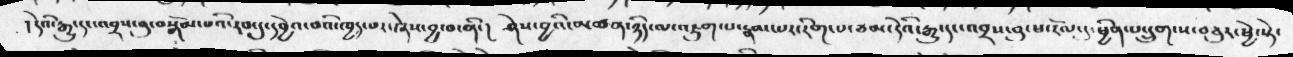།དེའི་རྒྱུ་དང་འབྲས་བུ་བསྒོམ་པའི་རབ་དུ་དབྱེའ་བའི་ཁྱད་པར་ཞེས་བྱ་བ་ནི་།  ཤེས་བྱའི་མཚན་ཉིད་ལ་འཇུག་པ་རྣམ་པར་་རིག་པ་ཙམ་དེའི་རྒྱུ་དང་འབྲས་བུ་ཕ་རོལ་དུ་ཕྱིན་པ་དྲུག་ས་བཅུར་ཕྱེ་སྟེ་
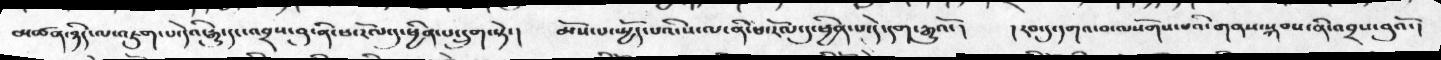མཚན་ཉིད་ལ་འཇུག་པ་དེའི་རྒྱུ་དང་འབྲས་བུ་ནི་ཕ་རོལ་དུ་ཕྱིན་པ་དྲུག་སྟེ་།  མོས་པ་སྤྱོད་པའི་ས་ལ་ནི་ཕ་རོལ་དུ་ཕྱིན་པ་དེ་དག་རྒྱུའོ་།  །རབ་དུ་དགའ་བ་ལསོགས་པའི་གནས་སྐབས་ནི་འབྲས་བུའོ་།
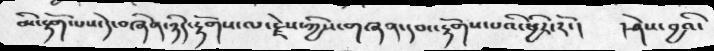མི་རྟོག་པས་དེ་བཞིན་ཉིད་རྟོགས་ལ་རྗེས་ཀྱིས་གཞན་དབང་རྟོགས་པའི་ཕྱིར་རོ་།  །ཤེས་བྱའི་
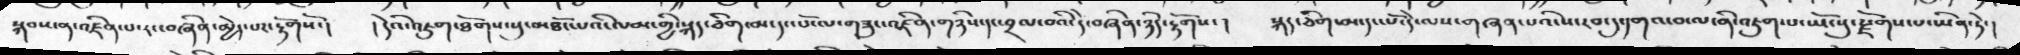སྐབས་ན་འཛིན་པ་རང་བཞིན་མྱེད་པར་རྟོགསོ་།  །དེའི་འཇུག་ཐོགས་སུ་མཐོང་པའི་ལམ་གྱི་སྐད་ཅིག་མ་དང་པོ་ལ་གཟུང་འཛིན་གཉིས་དང་བྲལ་བའི་དེ་བཞིན་ཉིད་རྟོགས་།  སྐད་ཅིག་མ་དང་པོ་དེ་ལས་གཞན་པའི་རབ་དུ་དགའ་བ་ལ་ནི་འཇུག་པ་ཡོངསུ་རྫོགས་པ་ཡིན་ཏེ་།
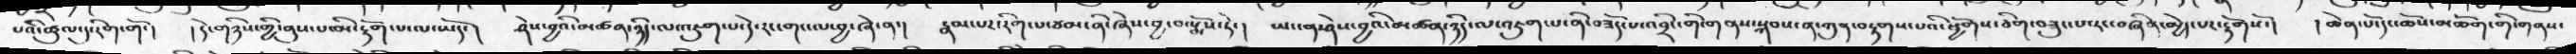པའི་ཚུལ་དུ་རིག་གོ་།  །དེ་གཉིས་གྱི་ནུས་པ་མི་རྟོག་པ་ལ་ཡོད་།  ཤེས་བྱའི་མཚན་ཉིད་ལ་འཇུག་པ་དེ་རང་གང་ལ་བྱ་ཞེ་ན་།  རྣམ་པར་རིག་པ་ཙམ་ནི་ཞེས་བྱ་བ་སྨོས་ཏེ་།  ཡང་ན་ཤེས་བྱའི་མཚན་ཉིད་ལ་འཇུག་པ་ནི་བཟོད་པ་འབྲིང་གི་གནས་སྐབས་ན་ཀུན་བརྟགས་པའི་ཕྱོགས་ཅིག་བཟུང་པ་རང་བཞིན་མྱེད་པར་རྟོགསོ་།  །ཆེན་པོ་དང་ཆོས་མཆོག་གི་གནས་
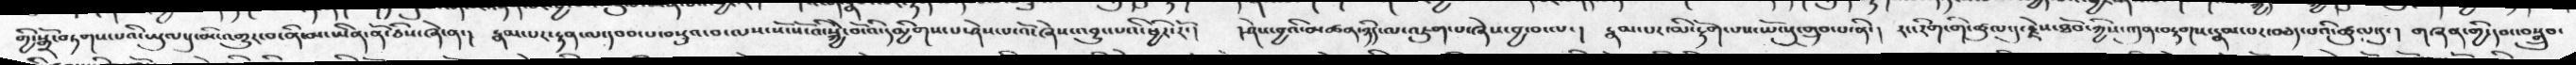གྱི་སྒྲོ་བཏགས་པའི་ཡུལ་དུ་མི་འགྱུར་བ་ནི་མ་ཡིན་ནོ་ཅིས་ཞེ་ན།  རྣམ་པར་རྟན་ལ་དབབ་པ་བསྡུའ་བ་ལས་སོ་སོ་འི་སྐྱེ་བོ་འི་དམྱིགས་པ་ཤེས་པ་འོ་ཞེས་འབྱུང་པའི་ཕྱིར་རོ་།  །ཤེས་བྱའི་མཚན་ཉིད་ལ་འཇུག་པ་ཞེས་བྱ་བ་ལ་།  རྣམ་པར་མི་རྟོག་པས་ཡོངསུ་གྲུབ་པ་ནི་།  རང་རིག་གི་ཚུལ་དུ་རྗེས་ཐོབ་ཀྱིས་ཀུན་བརྟགས་རྣམ་པར་བཅད་པའི་ཚུལ་དུ་།  གཞན་གྱི་དབང་བསྒྲུབ་
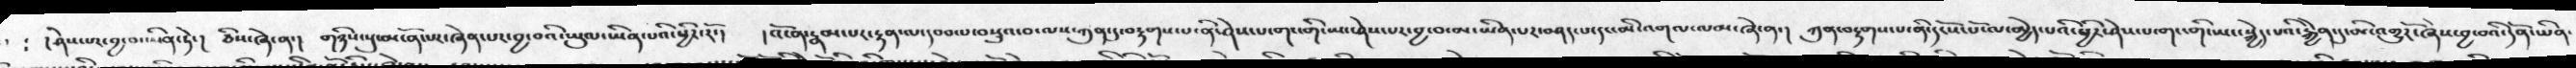་ ༴ །ཤེས་པར་བྱ་བ་ཡིན་ཏེ་།  ཅིས་ཞེ་ན་།  གཉིས་སུ་མངོན་པར་ཞེན་པར་བྱ་བའི་ཡུལ་ཡིན་པའི་ཕྱིར་རོ་།  །འོ་ན་རྣམ་པར་རྟན་ལ་དབབ་པ་བསྡུའ་བ་ལས་ཀུན་དུ་བརྟགས་པ་ནི་ཤེས་པ་གང་གི་ཡང་ཤེས་པར་བྱ་བ་མ་ཡིན་པར་བཤད་པ་དང་མི་འགལ་ལམ་ཞེ་ན་།  ཀུན་བརྟགས་པ་ནི་དངོས་པོ་ལ་མྱེད་པའི་ཕྱིར་ཤེས་པ་གང་གི་ཡང་སྐྱེད་པའི་རྐྱེན་དུ་མི་འགྱུརོ་ཞེས་བྱ་བའི་དོན་ཡིན་
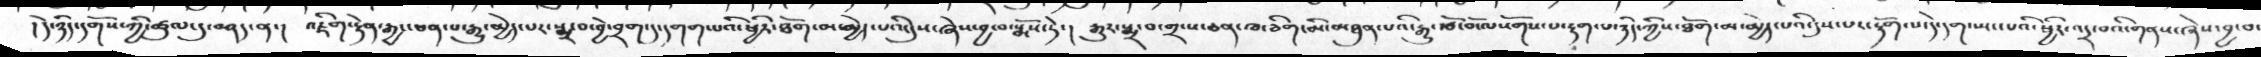།དེ་ཉིད་དགོས་ཀྱི་ཚུལ་དུ་བཤད་ན་།  འཇིག་རྟེན་རྒྱ་ཅན་པ་རྒྱུ་མྱེད་པར་སྨྲ་བ་བྱེ་བྲག་དུ་དགག་པའི་ཕྱིར་ཐོག་མ་མྱེད་པའི་དུས་ཞེས་བྱ་བ་སྨོས་ཏེ་།  རྒྱུར་སྨྲ་བ་གྲངཔ་ཅན་ཁ་ཅིག་མི་མཐུན་པའི་རྒྱུ་རྩོ་བོ་ལསོགས་པ་རྟག་པ་ཉིད་ཀྱིས་ཐོག་མ་མྱེད་པའི་དུས་པར་རྟོག་པ་དེ་དག་སྤང་པའི་ཕྱིར་འདྲ་བའི་གནས་ཞེས་བྱ་བ་
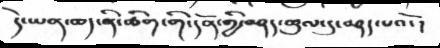དེ་ཡན་ཆད་ནི་ཚིག་གི་དོན་གྱི་བཤད་ཚུལ་དུ་བཤད་པའོ་།
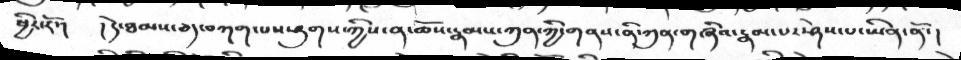ཕྱིར་རོ་།  །དེ་ཐམས་ཅད་བཀག་པས་ཤུགས་ཀྱིས་ན་ཆོས་རྣམས་ཀུན་ཀྱི་གནས་ནི་ཀུན་གཞིའ་རྣམ་པར་ཤེས་པ་ཡིན་ནོ་།
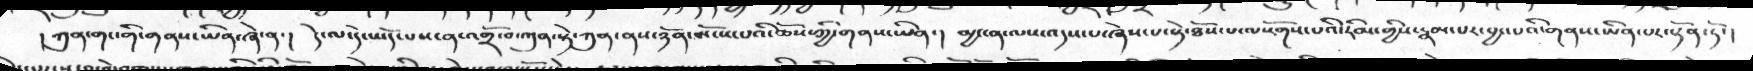།ཀུན་གང་གི་གནས་ཡིན་ཞེ་ན་།  དེ་ལ་དེ་ཡོད་པས་ན་འགྲོ་བ་ཀུན་སྟེ་ཀུན་ནས་ཉོན་མོངས་པའི་ཆོས་ཀྱི་གནས་ཡིན་།  མྱ་ངན་ལས་འདས་པ་ཞེས་པ་སྟེ་ཐོས་པ་ལསོགས་པའི་རིམ་གྱིས་རྣམ་པར་བྱང་པའི་གནས་ཡིན་པར་སྟོན་ཏོ་།
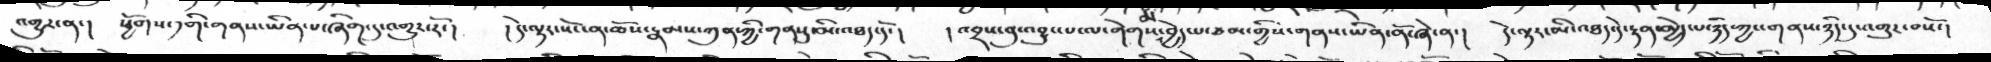འགྱུར་ན་།  ཕྱོགས་དགི་གནས་ཡིན་པ་ཞིག་དུ་འགྱུར་རོ་།  །དེ་ལྟར་སོང་ན་ཆོས་རྣམས་ཀུན་ཀྱི་གནསུ་མི་འཐད་དོ་།  །འབྲས་བུ་འབྱུང་པ་ལ་གེགས་མ་བྱེད་པ་ཙམ་གྱིས་གནས་ཡིན་ནོ་ཞེ་ན་།  དེ་ལྟར་མི་འཐད་དེ་རྟན་མྱེད་པ་ཉིད་ཀྱང་གནས་ཉིད་དུ་འགྱུར་བསོ་།
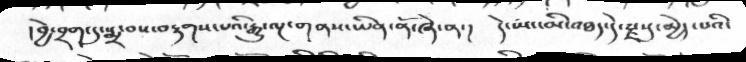།བྱེ་བྲག་དུ་སྨྲ་བས་བརྟགས་པའི་རྒྱུ་ལྔ་གནས་ཡིན་ནོ་ཞེ་ན་།  དེ་ཡང་མི་འཐད་དེ་རྫསུ་མྱེད་པའི་
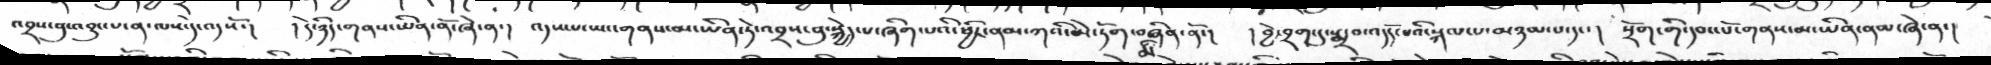འབྲས་བུ་འབྱུང་པ་ན་ལས་དེ་འདསོ་།  །དེ་ཉིད་གནས་ཡིན་ནོ་ཞེ་ན་།  འདས་པ་ཡང་གནས་མ་ཡིན་ཏེ་འབྲས་བུ་སྐྱེད་པ་ཞིག་པའི་ཕྱིར་ནམ་ཀའི་མེ་ཏོག་བཞིན་ནོ་།   །བྱེ་བྲག་དུ་སྨྲ་བ་འདོད་པའི་སྐལ་པ་མཉམ་པ་དང་།   སྲོག་གི་དབང་པོ་གནས་མ་ཡིན་ནམ་ཞེ་ན་།
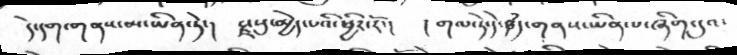དེ་དག་གནས་མ་ཡིན་ཏེ་།  རྫསུ་མྱེད་པའི་ཕྱིར་རོ་།   །གལ་ཏེ་དེ་ཐདཾ་གནས་ཡིན་པ་ཞིག་དུའ་
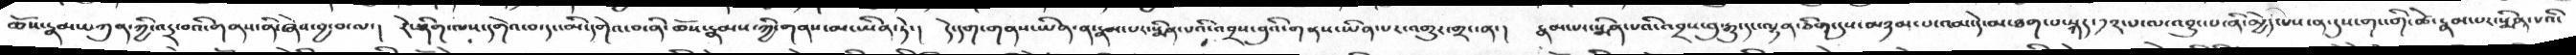ཆོས་རྣམས་ཀུན་ཀྱི་འདྲ་བའི་གནས་ནི་ཞེས་བྱ་བ་ལ་།  རེ་ཤིག་ལས་དགེའ་བ་དང་མི་དགེའ་བ་ནི་ཆོས་རྣམས་ཀྱི་གནས་མ་ཡིན་ཏེ་།  དེ་དག་གནས་ཡིན་ན་རྣམ་པར་སྨིན་པའི་འབྲས་བུའི་གནས་ཡིན་་པར་འགྱུར་གྲང་ན་།  རྣམ་པར་སྨིན་པའི་འབྲས་བུ་རྒྱུ་དང་ལྷན་ཅིག་དུས་མཉམ་པ་འམ་དེ་མ་ཐག་པ་སྐད་༡༢་པ་ལ་འབྱུང་པ་ནི་མྱེད་པས་ན་དུས་གང་གི་ཚེ་རྣམ་པར་སྨིན་པའི་
